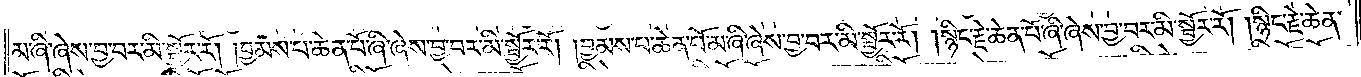མ་ཞི་ཞེས་བྱ་བར་མི་སྦྱོར་རོ། །བྱམས་པ་ཆེན་པོ་ཞི་ཞེས་བྱ་བར་མི་སྦྱོར་རོ། །བྱམས་པ་ཆེན་པོ་མ་ཞི་ཞེས་བྱ་བར་མི་སྦྱོར་རོ། །སྙིང་རྗེ་ཆེན་པོ་ཞི་ཞེས་བྱ་བར་མི་སྦྱོར་རོ། །སྙིང་རྗེ་ཆེན་
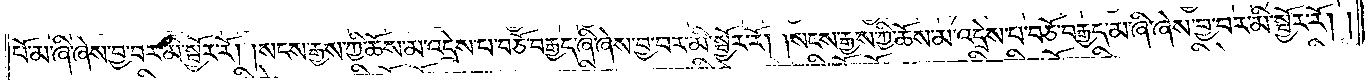པོ་མ་ཞི་ཞེས་བྱ་བར་མི་སྦྱོར་རོ། །སངས་རྒྱས་ཀྱི་ཆོས་མ་འདྲེས་པ་བཅོ་བརྒྱད་ཞི་ཞེས་བྱ་བར་མི་སྦྱོར་རོ། །སངས་རྒྱས་ཀྱི་ཆོས་མ་འདྲེས་པ་བཅོ་བརྒྱད་མ་ཞི་ཞེས་བྱ་བར་མི་སྦྱོར་རོ༎
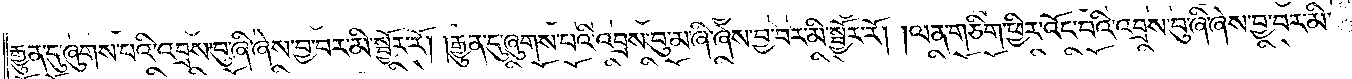རྒྱུན་དུ་ཞུགས་པའི་འབྲས་བུ་ཞི་ཞེས་བྱ་བར་མི་སྦྱོར་རོ། །རྒྱུན་དུ་ཞུགས་པའི་འབྲས་བུ་མ་ཞི་ཞེས་བྱ་བར་མི་སྦྱོར་རོ། །ལན་གཅིག་ཕྱིར་འོང་བའི་འབྲས་བུ་ཞི་ཞེས་བྱ་བར་མི་
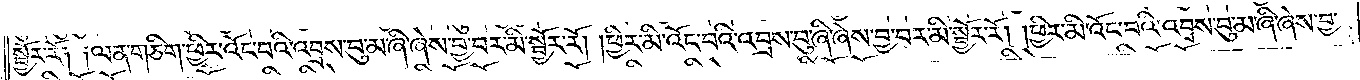སྦྱོར་རོ༑ ༑ལན་གཅིག་ཕྱིར་འོང་བའི་འབྲས་བུ་མ་ཞི་ཞེས་བྱ་བར་མི་སྦྱོར་རོ། །ཕྱིར་མི་འོང་བའི་འབྲས་བུ་ཞི་ཞེས་བྱ་བར་མི་སྦྱོར་རོ། །ཕྱིར་མི་འོང་བའི་འབྲས་བུ་མ་ཞི་ཞེས་བྱ་
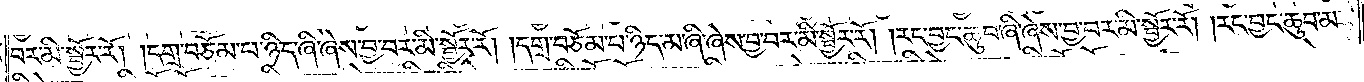བར་མི་སྦྱོར་རོ། །དགྲ་བཅོམ་པ་ཉིད་ཞི་ཞེས་བྱ་བར་མི་སྦྱོར་རོ། །དགྲ་བཅོམ་པ་ཉིད་མ་ཞི་ཞེས་བྱ་བར་མི་སྦྱོར་རོ། །རང་བྱང་ཆུབ་ཞི་ཞེས་བྱ་བར་མི་སྦྱོར་རོ། །རང་བྱང་ཆུབ་མ་
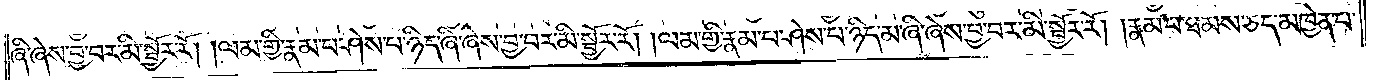ཞི་ཞེས་བྱ་བར་མི་སྦྱོར་རོ། །ལམ་གྱི་རྣམ་པ་ཤེས་པ་ཉིད་ཞི་ཞེས་བྱ་བར་མི་སྦྱོར་རོ། །ལམ་གྱི་རྣམ་པ་ཤེས་པ་ཉིད་མ་ཞི་ཞེས་བྱ་བར་མི་སྦྱོར་རོ། །རྣམ་པ་ཐམས་ཅད་མཁྱེན་པ་
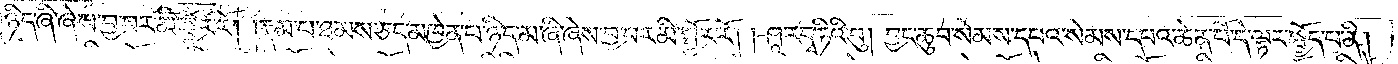ཉིད་ཞི་ཞེས་བྱ་བར་མི་སྦྱོར་རོ། །རྣམ་པ་ཐམས་ཅད་མཁྱེན་པ་ཉིད་མ་ཞི་ཞེས་བྱ་བར་མི་སྦྱོར་རོ། །ཤཱ་ར་དྭ་ཏིའི་བུ། བྱང་ཆུབ་སེམས་དཔའ་སེམས་དཔའ་ཆེན་པོ་དེ་ལྟར་སྤྱོད་པ་ནི།
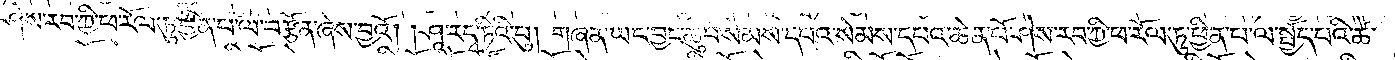ཤེས་རབ་ཀྱི་ཕ་རོལ་ཏུ་ཕྱིན་པ་ལ་བརྩོན་ཞེས་བྱའོ། །ཤཱ་ར་དྭ་ཏིའི་བུ། གཞན་ཡང་བྱང་ཆུབ་སེམས་དཔའ་སེམས་དཔའ་ཆེན་པོ་ཤེས་རབ་ཀྱི་ཕ་རོལ་ཏུ་ཕྱིན་པ་ལ་སྤྱོད་པའི་ཚེ་
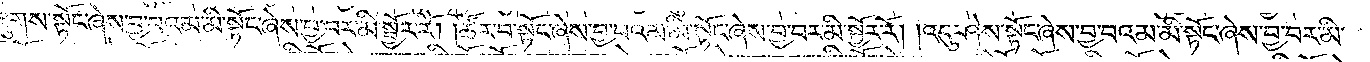གཟུགས་སྟོང་ཞེས་བྱ་བའམ་མི་སྟོང་ཞེས་བྱ་བར་མི་སྦྱོར་རོ། །ཚོར་བ་སྟོང་ཞེས་བྱ་བའམ་མི་སྟོང་ཞེས་བྱ་བར་མི་སྦྱོར་རོ། །འདུ་ཤེས་སྟོང་ཞེས་བྱ་བའམ་མི་སྟོང་ཞེས་བྱ་བར་མི་
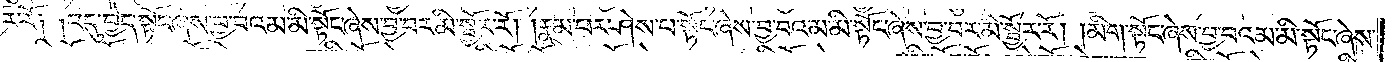སྦྱོར་རོ༑ ༑འདུ་བྱེད་སྟོང་ཞེས་བྱ་བའམ་མི་སྟོང་ཞེས་བྱ་བར་མི་སྦྱོར་རོ། །རྣམ་པར་ཤེས་པ་སྟོང་ཞེས་བྱ་བའམ་མི་སྟོང་ཞེས་བྱ་བར་མི་སྦྱོར་རོ། །མིག་སྟོང་ཞེས་བྱ་བའམ་མི་སྟོང་ཞེས་
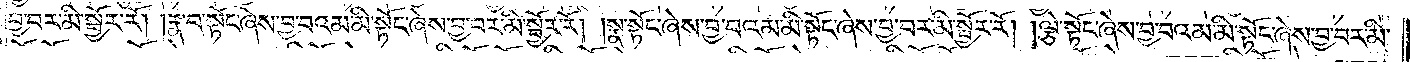བྱ་བར་མི་སྦྱོར་རོ། །རྣ་པ་སྟོང་ཞེས་བྱ་བའམ་མི་སྟོང་ཞེས་བྱ་བར་མི་སྦྱོར་རོ། །སྣ་སྟོང་ཞེས་བྱ་བའམ་མི་སྟོང་ཞེས་བྱ་བར་མི་སྦྱོར་རོ། །ལྕེ་སྟོང་ཞེས་བྱ་བའམ་མི་སྟོང་ཞེས་བྱ་བར་མི་
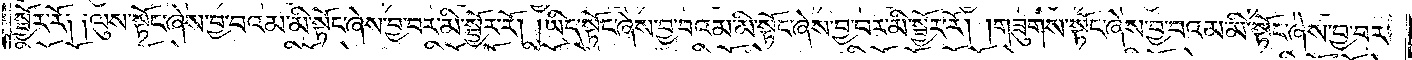སྦྱོར་རོ༑ ༑ལུས་སྟོང་ཞེས་བྱ་བའམ་མི་སྟོང་ཞེས་བྱ་བར་མི་སྦྱོར་རོ། །ཡིད་སྟོང་ཞེས་བྱ་བའམ་མི་སྟོང་ཞེས་བྱ་བར་མི་སྦྱོར་རོ། །གཟུགས་སྟོང་ཞེས་བྱ་བའམ་མི་སྟོང་ཞེས་བྱ་བར་
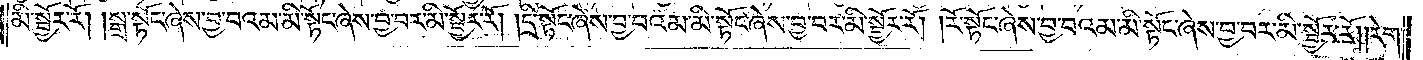མི་སྦྱོར་རོ། །སྒྲ་སྟོང་ཞེས་བྱ་བའམ་མི་སྟོང་ཞེས་བྱ་བར་མི་སྦྱོར་རོ། །དྲི་སྟོང་ཞེས་བྱ་བའམ་མི་སྟོང་ཞེས་བྱ་བར་མི་སྦྱོར་རོ། །རོ་སྟོང་ཞེས་བྱ་བའམ་མི་སྟོང་ཞེས་བྱ་བར་མི་སྦྱོར་རོ། །རེག་
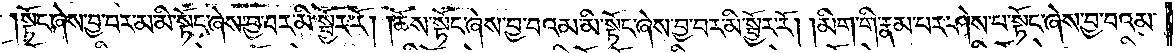སྟོང་ཞེས་བྱ་བར་མ་མི་སྟོང་ཞེས་བྱ་བར་མི་སྦྱོར་རོ། །ཆོས་སྟོང་ཞེས་བྱ་བའམ་མི་སྟོང་ཞེས་བྱ་བར་མི་སྦྱོར་རོ། །མིག་གི་རྣམ་པར་ཤེས་པ་སྟོང་ཞེས་བྱ་བའམ་
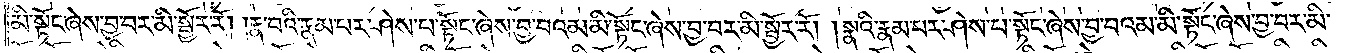མི་སྟོང་ཞེས་བྱ་བར་མི་སྦྱོར་རོ། །རྣ་བའི་རྣམ་པར་ཤེས་པ་སྟོང་ཞེས་བྱ་བའམ་མི་སྟོང་ཞེས་བྱ་བར་མི་སྦྱོར་རོ། །སྣའི་རྣམ་པར་ཤེས་པ་སྟོང་ཞེས་བྱ་བའམ་མི་སྟོང་ཞེས་བྱ་བར་མི་
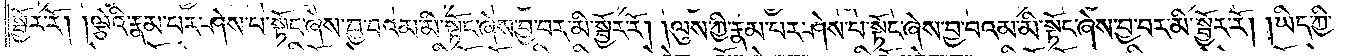སྦྱོར་རོ། །ལྕེའི་རྣམ་པར་ཤེས་པ་སྟོང་ཞེས་བྱ་བའམ་མི་སྟོང་ཞེས་བྱ་བར་མི་སྦྱོར་རོ། །ལུས་ཀྱི་རྣམ་པར་ཤེས་པ་སྟོང་ཞེས་བྱ་བའམ་མི་སྟོང་ཞེས་བྱ་བར་མི་སྦྱོར་རོ། །ཡིད་ཀྱི་
